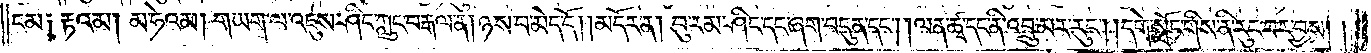ངམ༑ རྟའམ། མ་ཧེའམ། གཡག་ལ་འཇུས་ཤིང་ཀླུང་བརྒལ་ན། ཉེས་པ་མེད་དོ། །མདོར་ན། བུ་རམ་ཤིང་དང་ཞག་བདུན་དང༌། །ལན་ཚྭ་དང་ནི་འབྲུ་མར་རུང༌། །དགེ་སློང་གིས་ནི་རུང་བར་བྱས། །
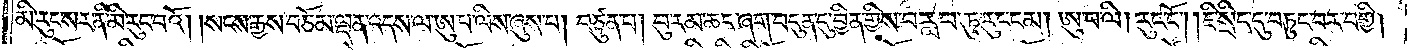མི་རུང་སར་ནི་མི་རུང་བའོ། །སངས་རྒྱས་བཅོམ་ལྡན་འདས་ལ་ཨུ་པ་ལིས་ཞུས་པ། བཙུན་པ། བུ་རམ་ཆང་ཞག་བདུན་དུ་བྱིན་གྱིས་བརླབ་ཏུ་རུང་ངམ། ཨུ་པ་ལི། རུང་ངོ༌། །ཇི་སྲིད་དུ་བཏུང་བར་བགྱི།
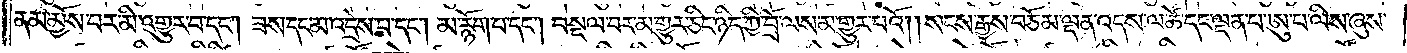ནམ་མྱོས་བར་མི་འགྱུར་བ་དང༌། ཟས་དང་མ་འདྲེས་པ་དང་མ་རྙོག་པ་དང༌། བསྔལ་བར་མ་གྱུར་ཅིང་ཉིད་ཀྱི་བྲོ་ལས་མ་གྱུར་པའོ། །སངས་རྒྱས་བཅོམ་ལྡན་འདས་ལ་ཚེ་དང་ལྡན་པ་ཨུ་པ་ལིས་ཞུས་
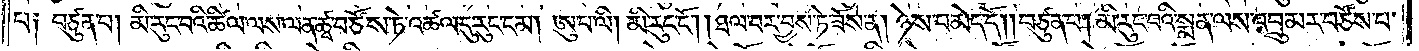པ༑ བཙུན་པ། མི་རུང་བའི་ཚིལ་ལས་ལན་ཚྭ་བཙོས་ཏེ་འཚལ་དུ་རུང་ངམ། ཨུ་པ་ལི། མི་རུང་ངོ༌། །ཐལ་བར་བྱས་ཏེ་ཟོས་ན། ཉེས་པ་མེད་དོ། །བཙུན་པ། མི་རུང་བའི་སྨན་ལས་འབྲུ་མར་བཙོས་པ་
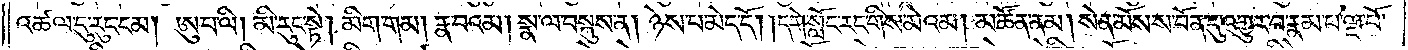འཚལ་དུ་རུང་ངམ། ཨུ་པ་ལི། མི་རུང་སྟེ། མིག་གམ། རྣ་བའམ། སྣ་ལ་བསྐུས་ན། ཉེས་པ་མེད་དོ། །དགེ་སློང་རང་གིས་མེའམ། མཚོན་ནམ། སེན་མོས་ས་བོན་དུ་འགྱུར་བ་རྣམ་པ་ལྔ་བོ་
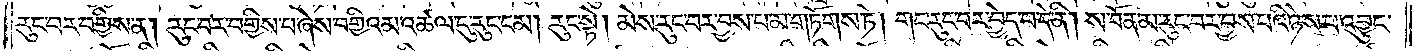རུང་བར་བགྱིས་ན། རུང་བར་བགྱིས་པ་ཞེས་བགྱིའམ་འཚལ་དུ་རུང་ངམ། རུང་སྟེ། མེས་རུང་བར་བྱས་པ་མ་གཏོགས་ཏེ། གང་རུང་བར་བྱེད་པ་དེ་ནི། ས་བོན་མ་རུང་བར་བྱས་པའི་ཉེས་པ་འབྱུང་
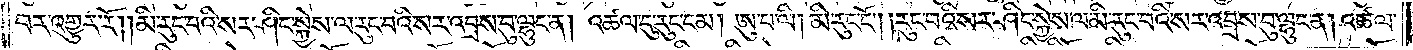བར་འགྱུར་རོ། །མི་རུང་བའི་སར་ཤིང་སྐྱེས་ལ་རུང་བའི་སར་འབྲས་བུ་ལྷུང་ན། འཚལ་དུ་རུང་ངམ། ཨུ་པ་ལི། མི་རུང་ངོ༌། །རུང་བའི་སར་ཤིང་སྐྱེས་ལ་མི་རུང་བའི་སར་འབྲས་བུ་ལྷུང་ན། འཚལ་
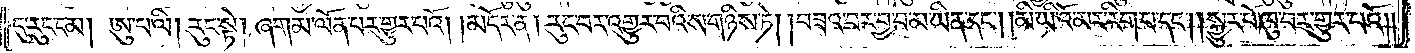དུ་རུང་ངམ། ཨུ་པ་ལི། རུང་སྟེ། ཞག་མ་ལོན་པར་གྱུར་བའོ། །མདོར་ན། རུང་བར་འགྱུར་བའི་ས་གཉིས་ཏེ། །བཟའ་བར་བྱ་བ་མ་ཡིན་དང༌། །མི་ཡི་འོ་མར་རིག་པ་དང༌། །སྐྱུར་པོ་ཁུ་བར་གྱུར་པའོ། །
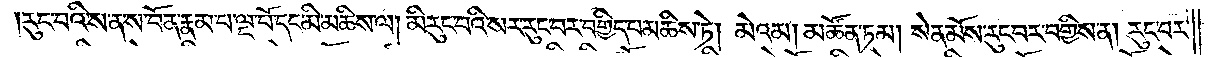རུང་བའི་ས་ན་ས་བོན་རྣམ་པ་ལྔ་བོ་དང་མི་མཆིས་ལ། མི་རུང་བའི་སར་རུང་བར་བགྱིད་པ་མཆིས་ཏེ། མེའམ། མཚོན་ཏམ། སེན་མོས་རུང་བར་བགྱིས་ན། རུང་བར་
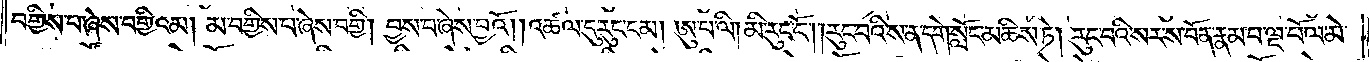བགྱིས་པ་ཞེས་བགྱིའམ། མ་བགྱིས་པ་ཞེས་བགྱི། བྱས་བ་ཞེས་བྱའོ། །འཚལ་དུ་རུང་ངམ། ཨུ་པ་ལི། མི་རུང་ངོ༌། །རུང་བའི་ས་ན་དགེ་སློང་མཆིས་ཏེ། རུང་བའི་སར་ས་བོན་རྣམ་པ་ལྔ་པོ་ལ་མེ་
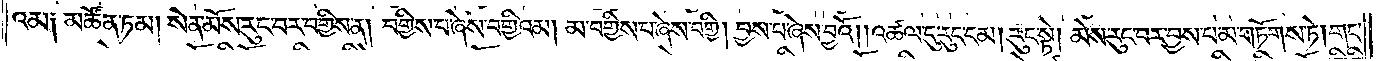འམ༑ མཚོན་ཏམ། སེན་མོས་རུང་བར་བགྱིས་ན། བགྱིས་པ་ཞེས་བགྱིའམ། མ་བགྱིས་པ་ཞེས་བགྱི། བྱས་པ་ཞེས་བྱའོ། །འཚལ་དུ་རུང་ངམ། རུང་སྟེ། མེས་རུང་བར་བྱས་པ་མ་གཏོགས་ཏེ། གང་
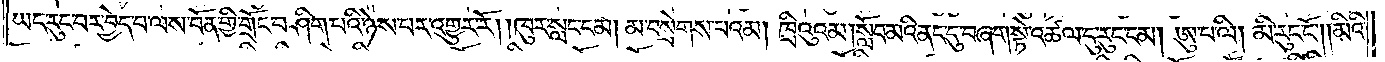ཡང་རུང་བར་བྱེད་པ་ལ་ས་བོན་གྱི་གྲོང་བ་ཤིག་པའི་ཉེས་པར་འགྱུར་རོ། །ཁུར་སླང་ངམ། མ་བསྲེགས་པའམ། ཁྲིའུའམ། སློབ་མའི་ནང་དུ་བཞག་སྟེ་འཚལ་དུ་རུང་ངམ། ཨུ་པ་ལི། མི་རུང་ངོ༌། །མིའི་
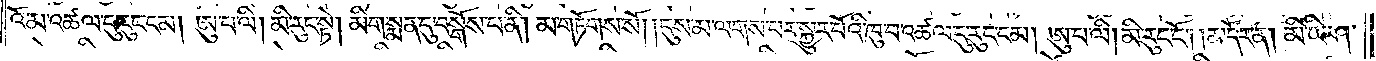འོ་མ་འཚལ་དུ་རུང་ངམ། ཨུ་པ་ལི། མི་རུང་སྟེ། མིག་སྨན་དུ་བསྒོས་པ་ནི། མ་གཏོགས་སོ། །དུས་མ་ལགས་པར་སྐྱུར་པོའི་ཁུ་བ་འཚལ་དུ་རུང་ངམ། ཨུ་པ་ལི། མི་རུང་ངོ༌། །མདོར་ན། མི་ཡི་ཤ་
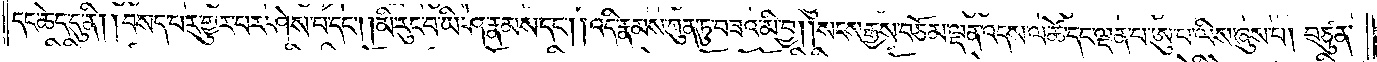དང་ཆེད་དུ་ནི། བསད་པར་གྱུར་པ་ཤེས་པ་དང༌། མི་རུང་བ་ཡི་ཤ་རྣམས་དང༌། །འདི་རྣམས་ཀུན་ཏུ་བཟའ་མི་བྱ། །སངས་རྒྱས་བཅོམ་ལྡན་འདས་ལ་ཚེ་དང་ལྡན་པ་ཨུ་པ་ལིས་ཞུས་པ། བཙུན་
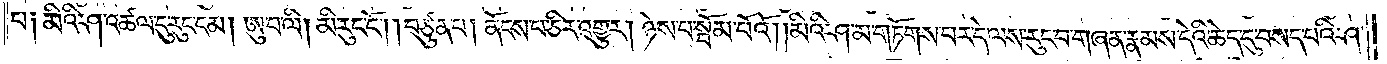པ༑ མིའི་ཤ་འཚལ་དུ་རུང་ངམ། ཨུ་པ་ལི། མི་རུང་ངོ༌། །བཙུན་པ། ནོངས་པ་ཅིར་འགྱུར། ཉེས་པ་སྦོམ་པོའོ། །མིའི་ཤ་མ་གཏོགས་པར་དེ་ལས་རུང་བ་གཞན་རྣམས་དེའི་ཆེད་དུ་བསད་པའི་ཤ་
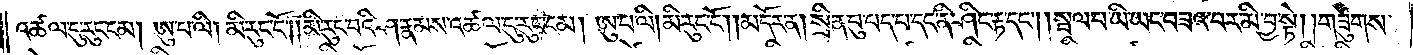འཚལ་དུ་རུང་ངམ། ཨུ་པ་ལི། མི་རུང་ངོ༌། །མི་རུང་བའི་ཤ་རྣམས་འཚལ་དུ་རུང་ངམ། ཨུ་པ་ལི། མི་རུང་ངོ༌། །མདོར་ན། སྲིན་བུ་པད་པ་དང་ནི་ཤིང་རྟ་དང༌། །སྦལ་པ་ཡི་ཡང་བཟའ་བར་མི་བྱ་སྟེ། །གཟུགས་
